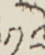༡༢
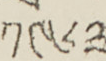༡༩༦༣
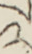༢
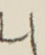༥
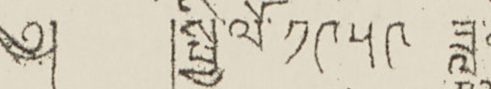༄། །སྤྱི་ལོ་ ༡༩༥༩ ཟླ་
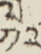༡༢
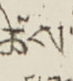ཚེས་
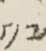༡༧
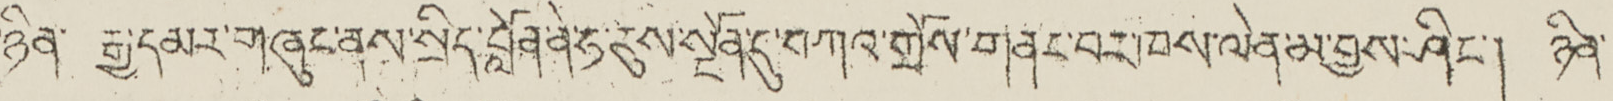ཉིན་རྒྱ་དམར་གཞུང་ནས་སྲིད་བློན་ནེ་ཧ་རུས་སྔོན་དུ་བཀའ་གྲོས་གནང་བར་ཁས་ལེན་མ་བྱས་ཤིང་། ཉིན་
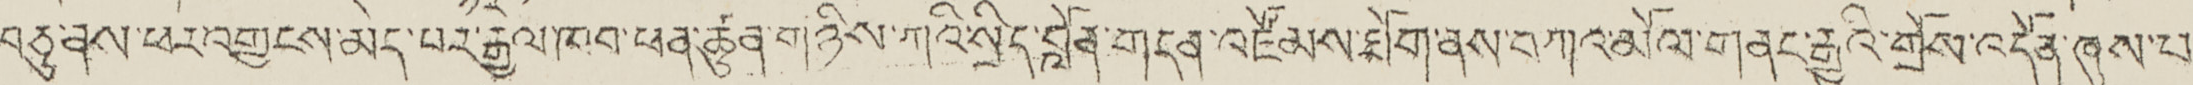བཅུ་ནས་ཕར་འགྱངས་མེད་པར་རྒྱལ་ཁབ་ཕན་ཚུན་གཉིས་ཀའི་སྲིད་བློན་གདན་འཛོམས་ཐོག་ནས་བཀའ་མོལ་གནང་རྒྱུའི་གྲོས་འདོན་ཞུས་པ་
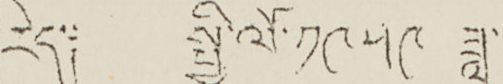རེད༑ སྤྱི་ལོ་ ༡༩༥༩ ཟླ་
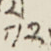༡༢
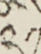༢༡
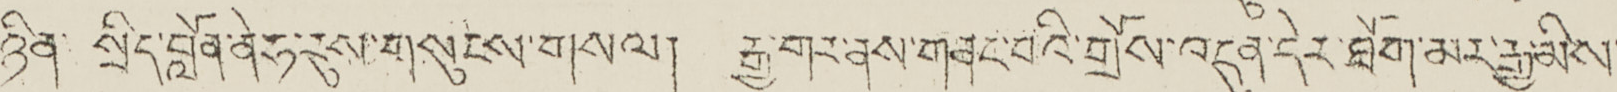ཉིན་ སྲིད་བློན་ནེ་ཧེ་རུས་གསུངས་གསལ། རྒྱ་གར་ནས་གནང་བའི་གྲོས་འདུན་དེར་ཐོག་མར་རྒྱ་མིས་
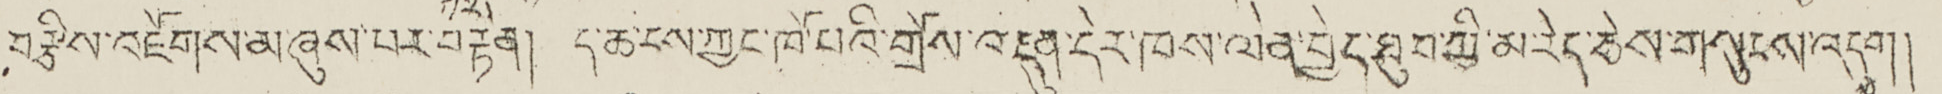བརྩིས་འཇོགས་མ་ཞུས་པར་བརྟེན། ད་ཆ་ངས་ཀྱང་ཁོ་པའི་གྲོས་འདུན་དེར་ཁས་ལེན་བྱེད་ཐུབ་ཀྱི་མ་རེད་ཅེས་གསུངས་འདུག།
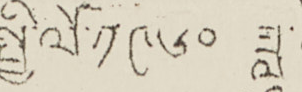སྤྱི་ལོ་ ༡༩༦༠ ཟླ་
